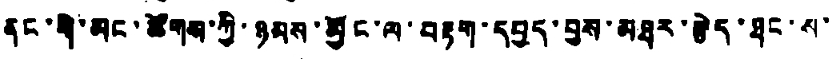ནང་གི་མང་ཚོགས་ཀྱི་ཉམས་མྱོང་ལ་བརྟག་དཔྱད་བྱས་མཐར་རྩེད་ཐང་ས་
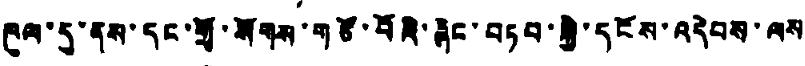ཁུལ་དུ་ནས་དང་གྲོ་སོགས་གཙོ་བོའི་ཞིང་བཏབ་ཀྱི་དངོས་འདེབས་ལས
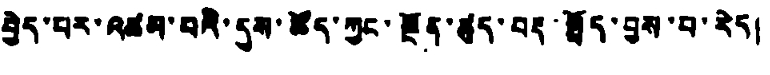བྱེད་པར་འཚམ་པའི་དུས་ཚོད་ཀྱང་སྔོན་ཚུད་བརྡ་སྤྲོད་བྱས་པ་རེད།
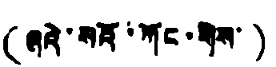(ཞའེ་སའོ་ཀོང་གིས་)
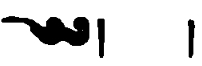༄༅། །
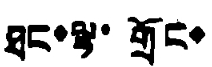ཐང་ལྷ་གྲོང་
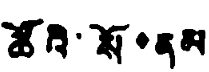ཚོའི་སོ་ནམ
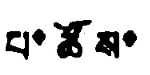པ་ཚོས་
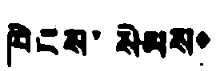ཁེངས་སེམས་
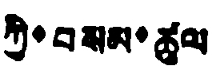ཀྱི་བསམ་ཚུལ
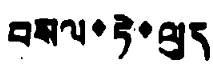བསལ་ཏེ་ལུད
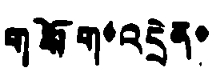གསོག་འདྲེན་
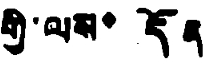གྱི་ལས་དོན
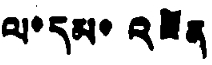ལ་དམ་འཛིན
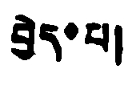བྱེད་པ།
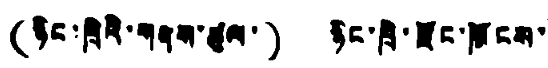(ཉིང་ཁྲིའི་གནས་ཚུལ་) ཉིང་ཁྲི་རྫོང་ཁོངས་་
